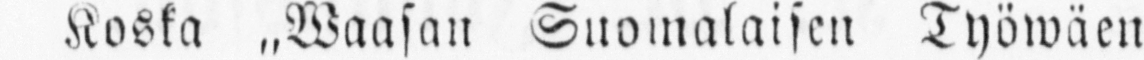Koska „Waasan Suomalaisen Työwäen
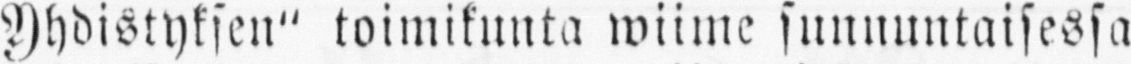Yhdistyksen" toimikunta wiimme sunnuntaisessa
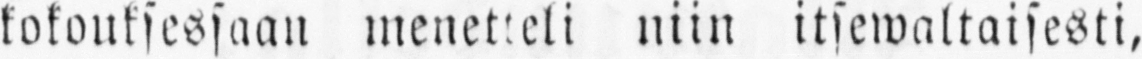kokouksessaan menetteli niin itsewaltaisesti,
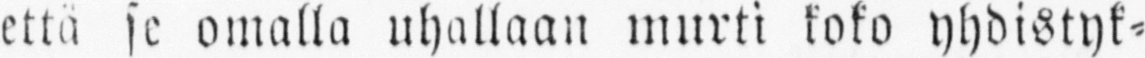että se omalla uhallaan murti koko yhdistyk-
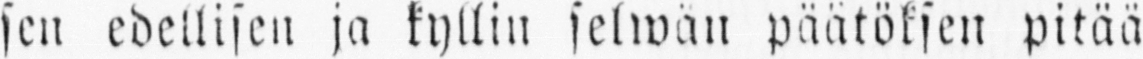sen edellisen ja kyllin selwän päätöksen pitää
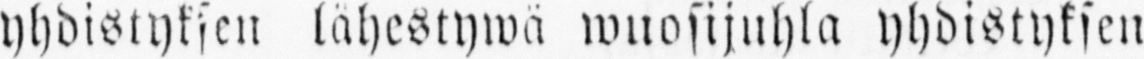yhdistyksen lähestywä wuosijuhla yhdistyksen
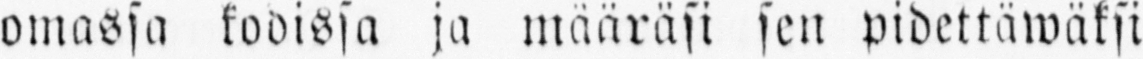omassa kodissa ja määräsi sen pidettäwäksi
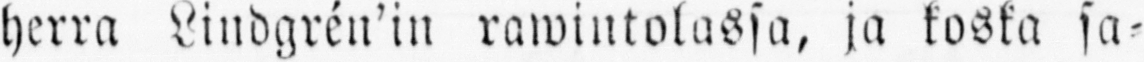herra Lindgrén’in rawintolassa, ja koska sa-
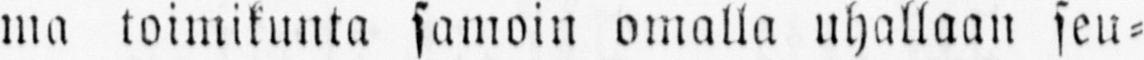ma toimikunta samoin omalla uhallaan seu-
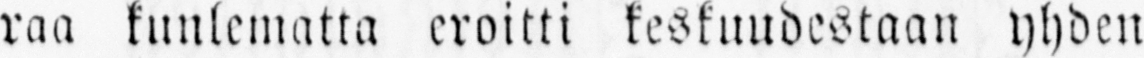raa kunlematta eroitti keskuudestaan yhden
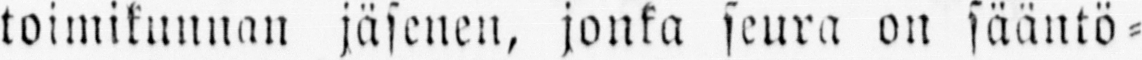toimikunnan jäsenen, jonka seura on sääntö-
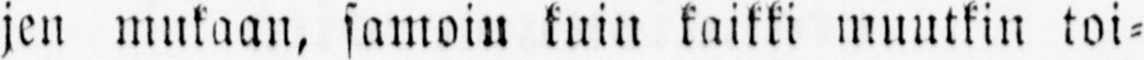jen mukaan, samoiu tuin kaikki muutkin toi-
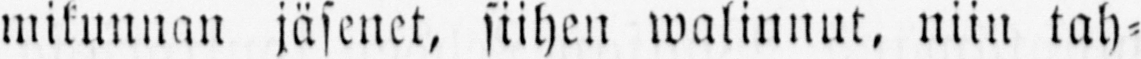mikunnan jäsenet, siihen walinnut, niin tah-
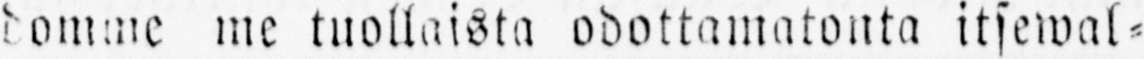domme me tuollaista odottamatonta itsewal-
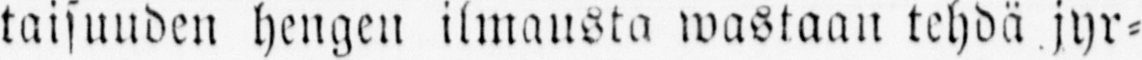taisuuden hengen ilmausta wastaan tehdä jyr-
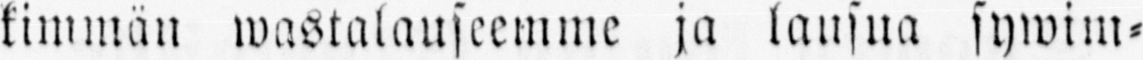kimmän wastalauseemme ja lausua sywim-
